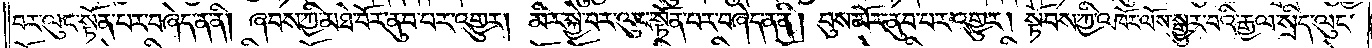བར་ལུང་སྟོན་པར་བཞེད་ན་ནི། ཞབས་ཀྱི་མཐེ་བོར་ནུབ་པར་འགྱུར། མིར་སྐྱེ་བར་ལུང་སྟོན་པར་བཞེད་ན་ནི། པུས་མོར་ནུབ་པར་འགྱུར། སྟོབས་ཀྱི་འཁོར་ལོས་སྒྱུར་བའི་རྒྱལ་སྲིད་ལུང་
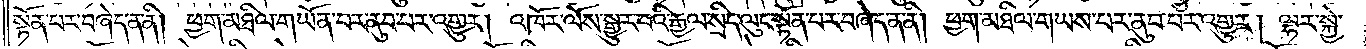སྟོན་པར་བཞེད་ན་ནི། ཕྱག་མཐིལ་གཡོན་པར་ནུབ་པར་འགྱུར། འཁོར་ལོས་སྒྱུར་བའི་རྒྱལ་སྲིད་ལུང་སྟོན་པར་བཞེད་ན་ནི། ཕྱག་མཐིལ་གཡས་པར་ནུབ་པར་འགྱུར། ལྷར་སྐྱེ་
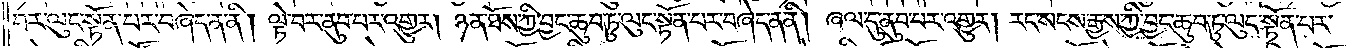བར་ལུང་སྟོན་པར་བཞེད་ན་ནི། ལྟེ་བར་ནུབ་པར་འགྱུར། ཉན་ཐོས་ཀྱི་བྱང་ཆུབ་ཏུ་ལུང་སྟོན་པར་བཞེད་ན་ནི། ཞལ་དུ་ནུབ་པར་འགྱུར། རང་སངས་རྒྱས་ཀྱི་བྱང་ཆུབ་ཏུ་ལུང་སྟོན་པར་
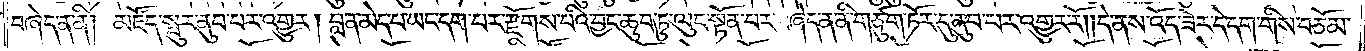བཞེད་ན་ནི། མཛོད་སྤུར་ནུབ་པར་འགྱུར། བླ་ན་མེད་པ་ཡང་དག་པར་རྫོགས་པའི་བྱང་ཆུབ་ཏུ་ལུང་སྟོན་པར་བཞེད་ན་ནི་གཙུག་ཏོར་དུ་ནུབ་པར་འགྱུར་རོ༎དེ་ནས་འོད་ཟེར་དེ་དག་གིས་བཅོམ་
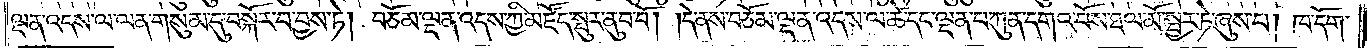ལྡན་འདས་ལ་ལན་གསུམ་དུ་བསྐོར་བ་བྱས་ཏེ། བཅོམ་ལྡན་འདས་ཀྱི་མཛོད་སྤུར་ནུབ་བོ། །དེ་ནས་བཅོམ་ལྡན་འདས་ལ་ཚེ་དང་ལྡན་པ་ཀུན་དགའ་བོས་ཐལ་མོ་སྦྱར་ཏེ་ཞུས་པ། ཁ་དོག་
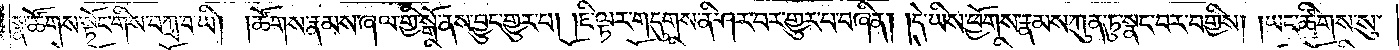སྣ་ཚོགས་སྟོང་གིས་བཀྲ་བ་ཡི། །ཚོགས་རྣམས་ཞལ་གྱི་སྒོ་ནས་བྱུང་གྱུར་པ། །ཇི་ལྟར་གདུགས་ནི་ཤར་བར་གྱུར་པ་བཞིན། །དེ་ཡིས་ཕྱོགས་རྣམས་ཀུན་ཏུ་སྣང་བར་བགྱིས། །ཡང་ཚིགས་སུ་
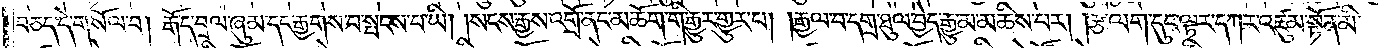བཅད་དེ་གསོལ་བ། རྒོད་བྲལ་ཞུམ་དང་རྒྱགས་པ་སྤངས་པ་ཡི། །སངས་རྒྱས་འགྲོ་ནང་མཆོག་གི་རྒྱུར་གྱུར་པ། །རྒྱལ་བ་དགྲ་ཐུལ་བྱེད་རྒྱུ་མ་མཆིས་པར། །རྩ་ལག་དུང་ལྟར་དཀར་འཛུམ་སྟོན་མི་
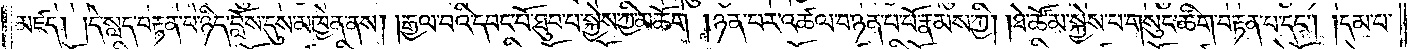མཛད། །དེ་སླད་བརྟན་པ་ཉིད་བློས་དུས་མཁྱེན་ནས། །རྒྱལ་བའི་དབང་པོ་ཐུབ་པ་སྐྱེས་ཀྱི་མཆོག །ཉན་པར་འཚལ་བ་ཉན་པ་པོ་རྣམས་ཀྱི། །ཐེ་ཚོམ་སྐྱེས་པ་གསུང་ཚིག་བརྟན་པ་དང༌། །དམ་པ་
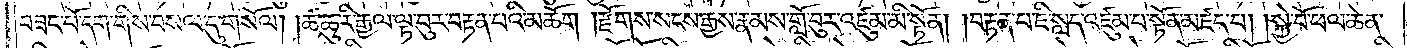བཟང་པོ་དག་གིས་བསལ་དུ་གསོལ། །ཚ་ཆུ་རི་རྒྱལ་ལྟ་བུར་བརྟན་པའི་མཆོག །རྫོགས་སངས་རྒྱས་རྣམས་གློ་བུར་འཛུམ་མི་སྟོན། །བརྟན་པ་ཇི་སླད་འཛུམ་པ་སྟོན་མཛད་པ། །སྐྱེ་བོ་ཕལ་ཆེན་
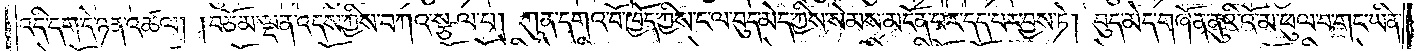འདི་དག་དེ་ཉན་འཚལ། །བཅོམ་ལྡན་འདས་ཀྱིས་བཀའ་སྩལ་པ། ཀུན་དགའ་བོ་ཁྱོད་ཀྱིས་ང་ལ་བུད་མེད་ཀྱིས་སེམས་མངོན་པར་དད་པར་བྱས་ཏེ། བུད་མེད་གཞོན་ནུའི་འོ་མ་ཕུལ་བ་གང་ཡིན་
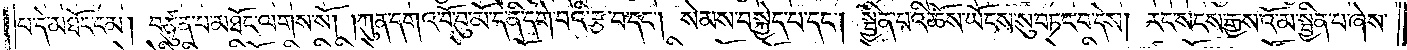པ་དེ་མཐོང་ངམ། བཙུན་པ་མཐོང་ལགས་སོ། །ཀུན་དགའ་བོ་བུ་མོ་དེ་ནི་དགེ་བའི་རྩ་བ་དང༌། སེམས་བསྐྱེད་པ་དང༌། སྦྱིན་པའི་ཆོས་ཡོངས་སུ་བཏང་བ་དེས། རང་སངས་རྒྱས་འོ་མ་སྦྱིན་པ་ཞེས་
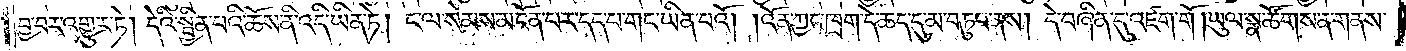བྱ་བར་འགྱུར་ཏེ། དེའི་སྦྱིན་པའི་ཆོས་ནི་འདི་ཡིན་ཏེ། ང་ལ་སེམས་མངོན་པར་དད་པ་གང་ཡིན་པའོ། །འོན་ཀྱང་ཁྲག་དེ་ཆད་དུ་མ་བཏུབ་ནས། དེ་བཞིན་དུ་འཛག་གོ། ཡུལ་སྣ་ཚོགས་ན་གནས་
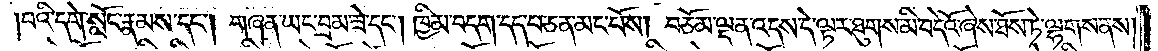པའི་དགེ་སློང་རྣམས་དང༌། གཞན་ཡང་བྲམ་ཟེ་དང༌། ཁྱིམ་བདག་དད་པ་ཅན་མང་པོས། བཅོམ་ལྡན་འདས་དེ་ལྟར་ཐུགས་མི་བདེའོ་ཞེས་ཐོས་ཏེ་ལྷགས་ནས།
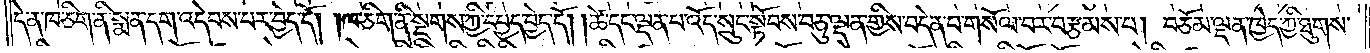དེ་ན་ཁ་ཅིག་ནི་སྨན་དག་འདེབས་པར་བྱེད་དོ། །ཁ་ཅིག་ནི་སྔགས་ཀྱི་དཔྱད་བྱེད་དོ། །ཚེ་དང་ལྡན་པ་འོད་སྲུང་སྟོབས་བཅུ་ལྡན་གྱིས་བདེན་པ་གསོལ་བར་བརྩམས་པ། བཅོམ་ལྡན་ཁྱེད་ཀྱི་ཐུགས་
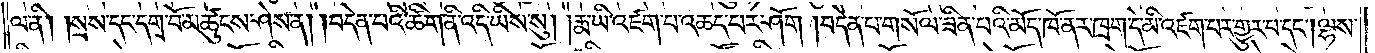ལ་ནི། །སྲས་དང་དགྲ་བོ་མཚུངས་ཤེས་ན། །བདེན་པའི་ཚིག་ནི་འདི་ཡིས་སུ། །རྨ་ཡི་འཛག་པ་འཆད་པར་ཤོག །བདེན་པ་གསོལ་ཟིན་པའི་མོད་ཁོ་ནར་ཁྲག་དེ་མི་འཛག་པར་གྱུར་པ་དང༌། ལྷས་
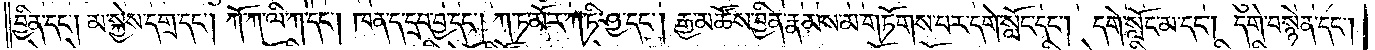བྱིན་དང༌། མ་སྐྱེས་དགྲ་དང༌། ཀོ་ཀ་ལི་ཀ་དང༌། ཁན་ད་དྲབ་བྱ་དང༌། ཀ་ཏ་མོ་ར་ཀ་ཏི་ཤྱ་དང༌། རྒྱ་མཚོས་བྱིན་རྣམས་མ་གཏོགས་པར་དགེ་སློང་དང༌། དགེ་སློང་མ་དང༌། དགེ་བསྙེན་དང༌།
